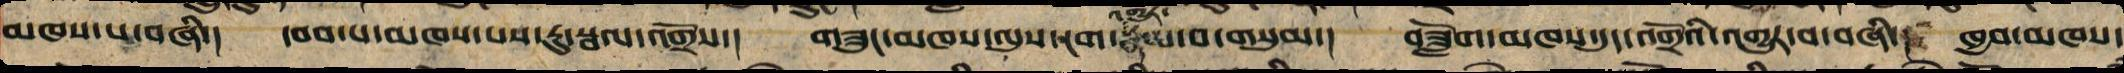མཁས་པ་བཞི་། དབབ་པར་མཁས་པས་རུས་སྦལ་འགྲོས་། གཟུང་མཁས་ལུས་ངག་འགྱུར་བ་གསུམ་། བཟློག་མཁས་དུད་འགྲོའི་འགྱུར་བ་བཞི་། ཁྱབ་མཁས་
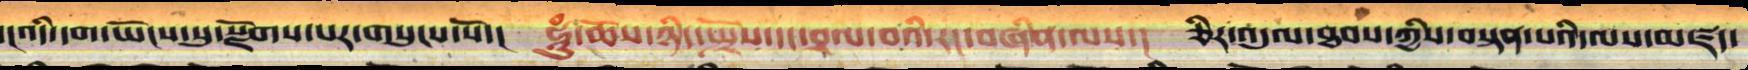་།འདི་དག་ཡོངས་སུ་སྫོགས་པར་གསུངས་སོ་།   ཧཱུཾ་ཆོས་ཉིད་སྤྲོས་དང་བྲལ་བའི་རང་བཞིན་ལས་།  ཅིར་འདུལ་ཐབས་ཀྱིས་བསྟན་པའི་ལས་མཛད་
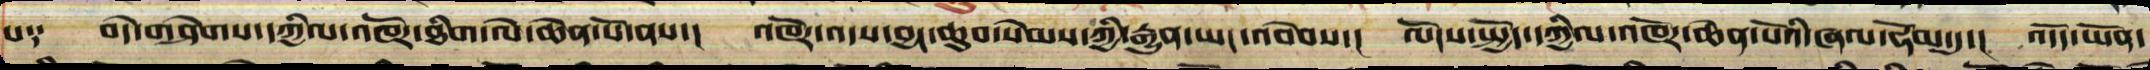པ༑  བདེ་གཤེགས་དཀྱིལ་འཁོར་ཐིག་ལེ་ཆེན་པོ་ནས་།  འཁོར་འདས་བྱང་ཆུབ་སེམས་ཀྱི་རྒྱུན་ཡང་འབེབས་།  ལོངས་སྤྱོད་དཀྱིལ་འཁོར་ཆེན་པོའི་ཞལ་ཧོམ་དུ་།  འདོད་ཡོན་
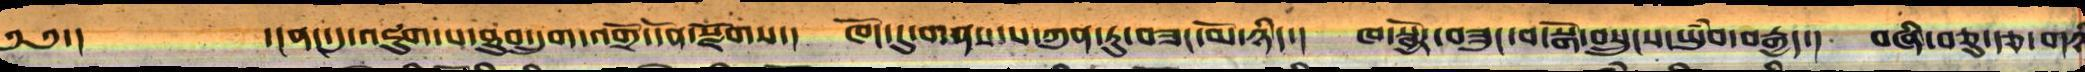༄༅་། ་།ནང་དུ་འཇུག་པ་ཐུབ་དྲུག་འགྲོ་དོན་སྫོགས་། ཁོང་དུ་གནས་པ་ཀུན་ཏུ་བཟང་མོ་ཉིད་། ཁ་སྦྱོར་བཟུང་བ་སྒོ་སྲུང་ཡབ་ཡུམ་བརྒྱད་། བཞི་བཅུ་རྩ་གཉིས་
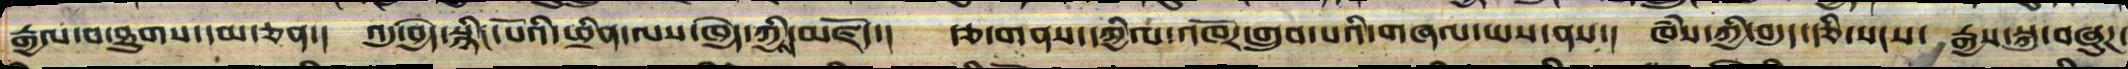རྒྱལ་བ་ཐུགས་དམ་ཅན་། འདུ་བྱེད་སྙིང་པོའི་ཕྲིན་ལས་ཁྱེད་ཀྱིས་མཛོད་། རྩ་གནས་དཀྱིལ་འཁོར་གྲུབ་པའི་གཞལ་ཡས་ནས་། ཁཾས་ཀྱི་བདུད་རྩི་སངས་རྒྱས་སྐུ་བཞུཌ་
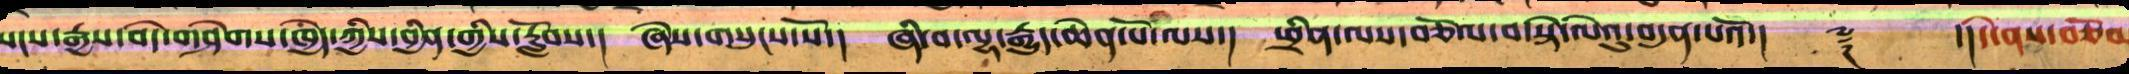སངས་རྒྱས་བདེ་གཤེགས་ཁྱེད་ཀྱིས་བྱིན་གྱིས་རློབས་། ཞེས་གསུངས་སོ་། ཞི་བ་ལྷ་རྒྱུད་ཆེན་པོ་ལས་། ཕྲིན་ལས་བཅོལ་བ་སྟེ་ལེའུ་བདུན་པའོ་།། ༈ །་།དེ་ནས་བཅོམ
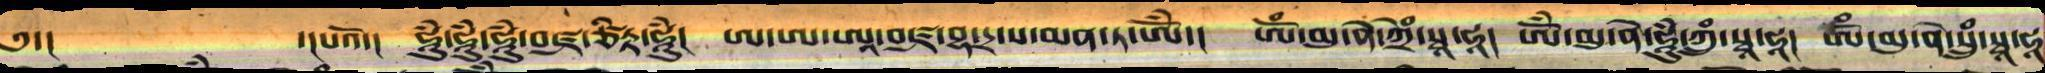༄༅་། ་།པའོ་། ཧཱུཾ་ཧཱུཾ་ཧཱུཾ་བཛྲ་ཙིཏྟ་ཧཱུཾ། ཨ་ཨ་ཨཱ་བཛྲ་བྷ་དྲ་ས་མན་ཏ་ཨོཾ། ཨོཾ་མུ་ནེ་ཀྲིཾ་སྭཱ་ཧཱ། ཨོཾ་མུ་ནེ་ཧཱུཾ་ཀུཾ་སྭཱ་ཧཱ། ཨོཾ་མུ་ནེ་སྲུཾ་སྭཱ་ཧཱ།
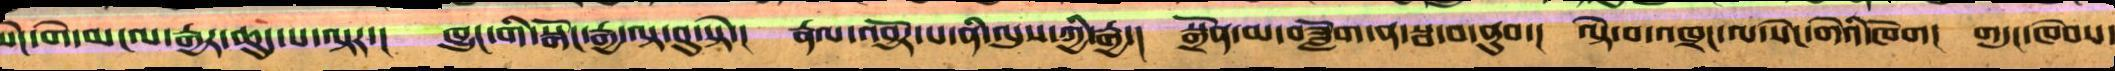སེང་གེ་མངལ་རྒྱར་ཆུད་པ་ལྟར་། ཁྱུང་གི་སྒོང་རྒྱ་ལྟ་བུ་སྟེ་། རྣལ་འབྱོར་པ་ནི་ལུས་ཀྱི་རྒྱ་། སྒྲོན་མ་བཟློག་ན་སྦ་བ་ནུབ་། ལྟེ་བ་མཁྲང་ལ་སེང་བའི་ཁོག། གདུང་ཁེབས་
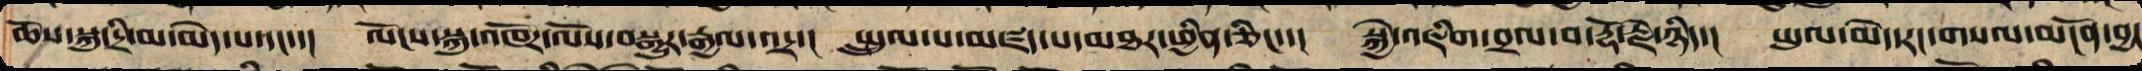ཆོས་སྐུ་དྲི་མ་མེད་པ་དང་་། ལོངས་སྐུ་འཁོར་ལོས་སྒྱུར་རྒྱལ་འདྲ་། སྤྲུལ་པ་མཛད་པ་མཐར་ཕྱིན་ཅིང་་། སྐྱེ་འཇིག་བྲལ་བ་རྡོ་རྗེ་ཉིད་། ཡུལ་མེད་རང་གསལ་མངོན་བྱང
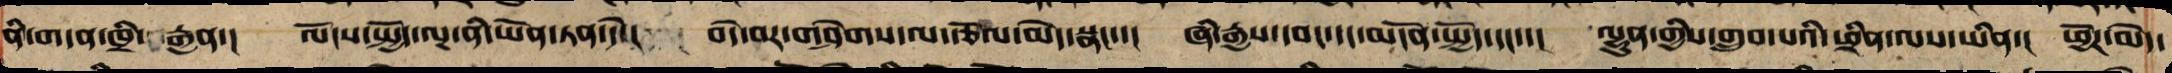ནི་གདན་ཁྲི་རྒྱན་།  ལོངས་སྤྱོད་ལྔ་ནི་ཡོན་ཏན་དེ་།  བདེ་བར་གཤེགས་ལ་རྩོལ་མེད་སྣང་་།  ཞི་རྒྱས་དབང་དང་མངོན་སྤྱོད་དང་་།  ལྷུན་གྱིས་གྲུབ་པའི་ཕྲིན་ལས་ཡིན་།  ཕྱོཌ་མེད་
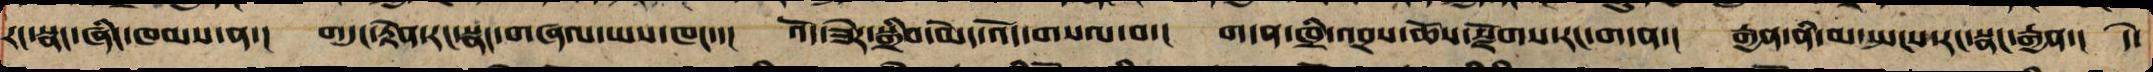རང་སྣང་ཞིང་ཁམས་ན་།  གདུང་རྟེན་རང་སྣང་གཞལ་ཡས་ཁང་་།  འོད་ཟེར་སྒྲིབ་མེད་འོད་གསལ་བ་།  གདན་ཁྲི་འབྲས་ཆོས་སྫོགས་རང་གདན་།  རྒྱན་ནི་མ་སྤངས་རང་སྣང་རྒྱན་།  དེ་
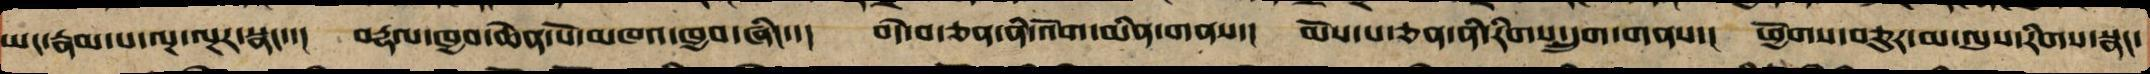ཡང་རྣམ་པ་ལྔ་ལྔར་སྣང་་། བརྡལ་ཁྱབ་ཆེན་པོ་མཁའ་ཁྱབ་ཞིང་་། བདེ་བ་ཅན་ནི་འོག་མིན་གནས་།  མོས་པ་ཅན་ནི་རིགས་དྲུག་གནས་། ཕྱོགས་བཅུར་མ་ལུས་རིགས་སྣང་
